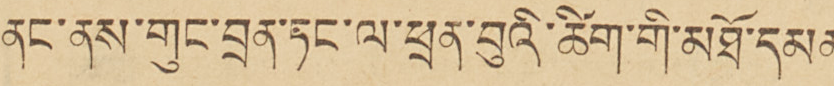ནང་ནས་གུང་བྲན་ཏང་ལ་ཕྲན་བུའི་ཚིག་གི་མཐོ་དམན་
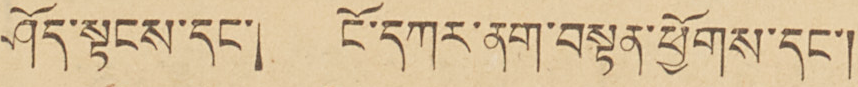ཤོག་སྟངས་དང་། ངོ་དཀར་ནག་བསྟན་ཕྱོགས་དང་།
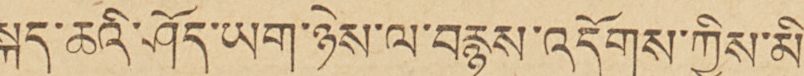སྐད་ཆའི་ཤོད་ཡག་ཉེས་ལ་བརྙས་འདོགས་ཀྱིས་མི་
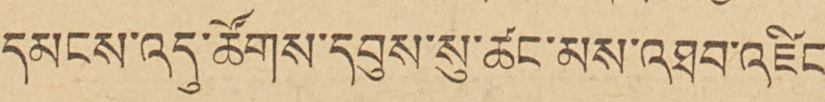དམངས་འདུ་ཚོགས་དབུས་སུ་ཚང་མས་འཐབ་འཛིང་
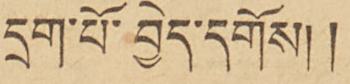དྲག་པོ་བྱེད་དགོས།།
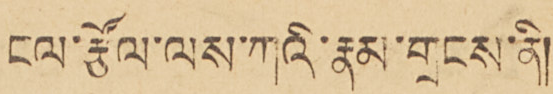ངལ་ཙོལ་ལས་ཀའི་རྣམ་གྲངས་ནི།
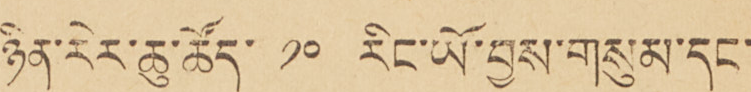ཉིན་རེར་ཆུ་ཚོད་ ༡༠ རིང་ཡོ་བྱས་གསུམ་དང་
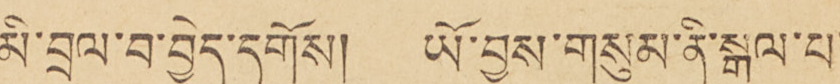མི་བྲལ་བ་བྱེད་དགོས། ཡོ་བྱས་གསུམ་ནི་སྒལ་པ་
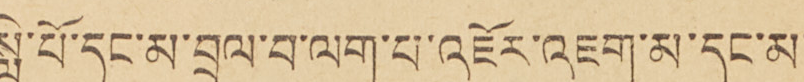སླེ་པོ་དང་མ་བྲལ་བ་ལག་པ་འཇོར་འཇག་མ་དང་མ་
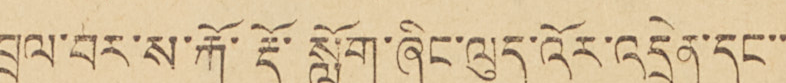བྲལ་བར་ས་རྐོ་རྡོ་སློག་ཞིང་ལུད་འོར་འདྲེན་དང་་
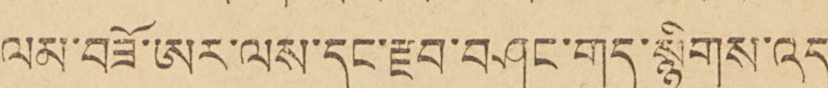ལམ་བཟོ་ཨར་ལས་དང་རྫབ་བཤང་གད་སྙིགས་འདུ་
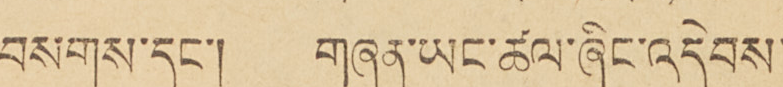བསགས་དང་། གཞན་ཡང་ཚལ་ཞིང་འདེབས་
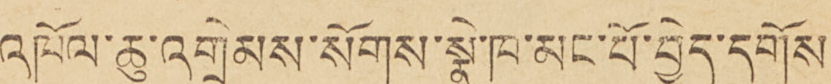འཁོལ་ཆུ་འགྲེམས་སོགས་སྣེ་ཁ་མང་པོ་བྱེད་དགོས་
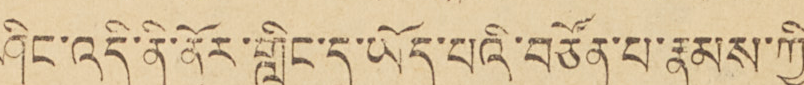ཤིང་འདི་ནི་ནོར་གླིང་དུ་ཡོད་པའི་བརྩོན་པ་རྣམས་ཀྱི་
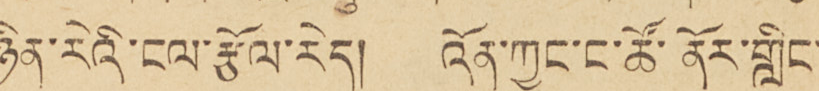ཉིན་རེའི་ངལ་རྩོལ་རེད། འོན་ཀྱང་ང་ཚོ་ནོར་གླིང་
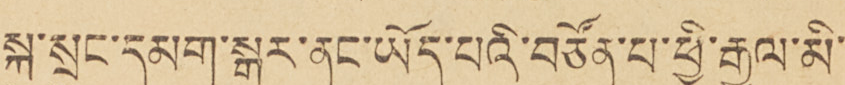སྐུ་སྲུང་དམག་སྒར་ནང་ཡོད་པའི་བཙོན་པ་ཕྱི་རྒྱལ་མི་
